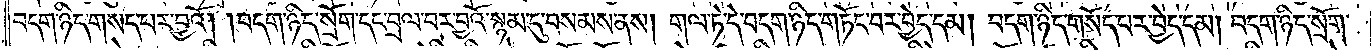བདག་ཉིད་གསད་པར་བྱའོ། །བདག་ཉིད་སྲོག་དང་བྲལ་བར་བྱའོ་སྙམ་དུ་བསམས་ནས། གལ་ཏེ་དེ་བདག་ཉིད་གཏོང་བར་བྱེད་དམ། བདག་ཉིད་གསོད་པར་བྱེད་དམ། བདག་ཉིད་སྲོག་
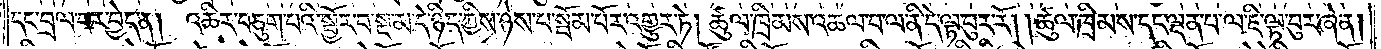དང་བྲལ་བར་བྱེད་ན། འཆིར་བཅུག་པའི་སྦྱོར་བ་སྔ་མ་དེ་ཉིད་ཀྱིས་ཉེས་པ་སྦོམ་པོར་འགྱུར་ཏེ། ཚུལ་ཁྲིམས་འཆལ་བ་ལ་ནི་དེ་ལྟ་བུར་རོ། །ཚུལ་ཁྲིམས་དང་ལྡན་པ་ལ་ཇི་ལྟ་བུར་ཞེ་ན།
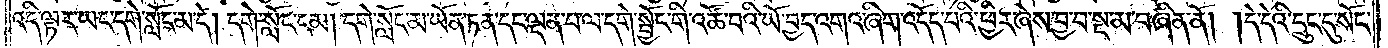འདི་ལྟར་ཡང་དགེ་སློང་མ་དེ། དགེ་སློང་ངམ། དགེ་སློང་མ་ཡོན་ཏན་དང་ལྡན་པ་ལ་དགེ་སྦྱོང་གི་འཚོ་བའི་ཡོ་བྱད་འགའ་ཞིག་འདོད་པའི་ཕྱིར་ཞེས་བྱ་བ་སྔ་མ་བཞིན་ནོ། །དེ་དེའི་དྲུང་དུ་སོང་
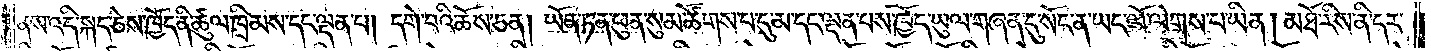ནས་འདི་སྐད་ཅེས་ཁྱོད་ནི་ཚུལ་ཁྲིམས་དང་ལྡན་པ། དགེ་བའི་ཆོས་ཅན། ཡོན་ཏན་ཕུན་སུམ་ཚོགས་པ་དུ་མ་དང་ལྡན་པས་ཁྱོད་ཡུལ་གཞན་དུ་སོང་ན་ཡང་ལོ་ལེགས་པ་ཡིན་།མཐོ་རིས་ནི་དར་
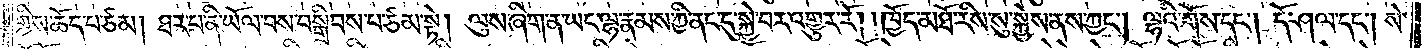གྱིས་ཆོད་པ་ཙམ། ཐར་པ་ནི་ཡོལ་བས་བསྒྲིབས་པ་ཙམ་སྟེ། ལུས་ཞིག་ན་ཡང་ལྷ་རྣམས་ཀྱི་ནང་དུ་སྐྱེ་བར་འགྱུར་རོ། །ཁྱོད་མཐོ་རིས་སུ་སྐྱེས་ནས་ཀྱང༌། ལྷའི་གོས་དང༌། དོ་ཤལ་དང༌། སེ་
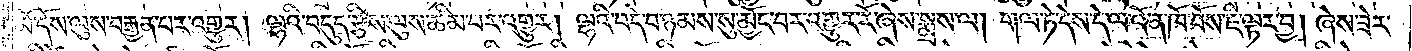མོ་དོས་ལུས་བརྒྱན་པར་འགྱུར། ལྷའི་བདུད་རྩིས་ལུས་ཚིམ་པར་འགྱུར། ལྷའི་བདེ་བ་ཉམས་སུ་མྱོང་བར་འགྱུར་རོ། ཞེས་སྨྲས་ལ། གལ་ཏེ་དེས་དེ་ལ་འོ་ན་ཁོ་བོས་ཇི་ལྟར་བྱ། ཞེས་ཟེར་
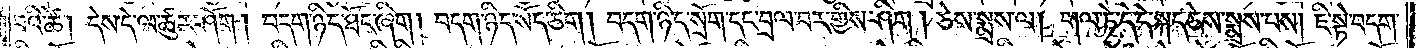བའི་ཚེ། དེས་དེ་ལ་ཚུར་ཤོག། བདག་ཉིད་ཐོང་ཞིག །བདག་ཉིད་སོད་ཅིག །བདག་ཉིད་སྲོག་དང་བྲལ་བར་གྱིས་ཤིག །ཅེས་སྨྲས་ལ། གལ་ཏེ་དེ་དེ་སྐད་ཅེས་སྨྲས་པས། ཇི་སྟེ་བདག་
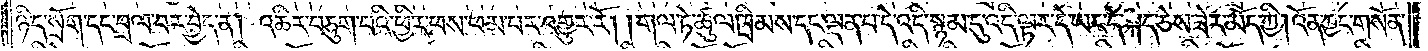ཉིད་སྲོག་དང་བྲལ་བར་བྱེད་ན། འཆིར་བཅུག་པའི་ཕྱིར་ཕས་ཕམ་པར་འགྱུར་རོ། །གལ་ཏེ་ཚུལ་ཁྲིམས་དང་ལྡན་པ་དེ་འདི་སྙམ་དུ་འདི་ལྟར་དེ་ཡང་དེ་སྐད་ཅེས་ཟེར་མོད་ཀྱི། འོན་ཀྱང་གསོན་
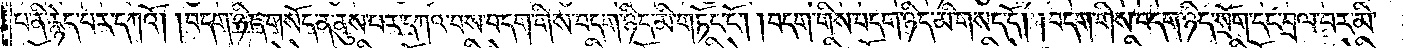པ་ནི་རྙེད་པར་དཀའོ། །བདག་ཉིད་གསོད་ན་ནུས་པར་དཀའ་བས་བདག་གིས་བདག་ཉིད་མི་གཏོང་ངོ༌། །བདག་གིས་བདག་ཉིད་མི་གསད་དོ། །བདག་གིས་བདག་ཉིད་སྲོག་དང་བྲལ་བར་མི་
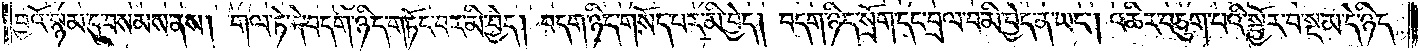བྱའོ་སྙམ་དུ་བསམས་ནས། གལ་ཏེ་དེ་བདག་ཉིད་གཏོང་བར་མི་བྱེད། བདག་ཉིད་གསོད་པར་མི་བྱེད། བདག་ཉིད་སྲོག་དང་བྲལ་བ་མི་བྱེད་ན་ཡང༌། འཆིར་བཅུག་པའི་སྦྱོར་བ་སྔ་མ་དེ་ཉིད་
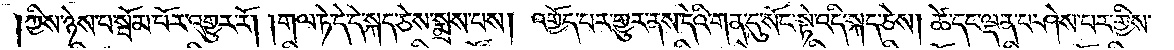ཀྱིས་ཉེས་པ་སྦོམ་པོར་འགྱུར་རོ། །གལ་ཏེ་དེ་དེ་སྐད་ཅེས་སྨྲས་པས། འགྱོད་པར་གྱུར་ནས་དེའི་གན་དུ་སོང་སྟེ་འདི་སྐད་ཅེས། ཚེ་དང་ལྡན་པ་ཤེས་པར་གྱིས་
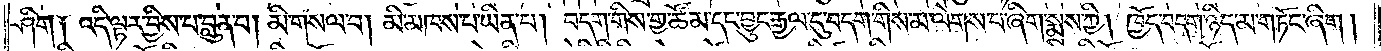ཤིག །འདི་ལྟར་བྱིས་པ་བླུན་པ། མི་གསལ་བ། མི་མཁས་པ་ཡིན་པ། བདག་གིས་གྱ་ཚོམ་དང་བྱུང་རྒྱལ་དུ་བདག་གིས་མ་ལེགས་པ་ཞིག་སྨྲས་ཀྱི། ཁྱོད་བདག་ཉིད་མ་གཏོང་ཞིག །
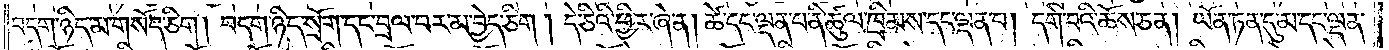བདག་ཉིད་མ་གསོད་ཅིག །བདག་ཉིད་སྲོག་དང་བྲལ་བར་མ་བྱེད་ཅིག །དེ་ཅིའི་ཕྱིར་ཞེ་ན། ཚེ་དང་ལྡན་པ་ནི་ཚུལ་ཁྲིམས་དང་ལྡན་པ། དགེ་བའི་ཆོས་ཅན། ཡོན་ཏན་དུ་མ་དང་ལྡན་
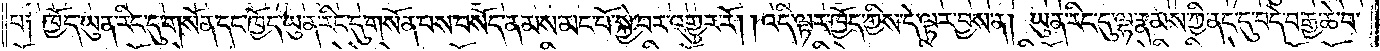པ༑ ཁྱོད་ཡུན་རིང་དུ་གསོན་དང་ཁྱོད་ཡུན་རིང་དུ་གསོན་པས་བསོད་ནམས་མང་པོ་སྐྱེ་བར་འགྱུར་རོ། ། འདི་ལྟར་ཁྱོད་ཀྱིས་དེ་ལྟར་བྱས་ན། ཡུན་རིང་དུ་ལྷ་རྣམས་ཀྱི་ནང་དུ་བདེ་བ་རྒྱ་ཆེ་བ་
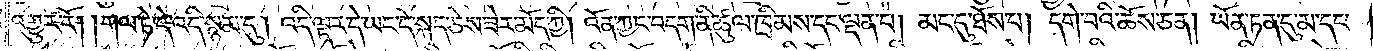འགྱུར་རོ། ། གལ་ཏེ་དེ་འདི་སྙམ་དུ། འདི་ལྟར་དེ་ཡང་དེ་སྐད་ཅེས་ཟེར་མོད་ཀྱི། འོན་ཀྱང་བདག་ནི་ཚུལ་ཁྲིམས་དང་ལྡན་པ། མང་དུ་ཐོས་པ། དགེ་བའི་ཆོས་ཅན། ཡོན་ཏན་དུ་མ་དང་
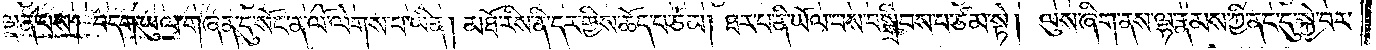ལྡན་པས། བདག་ཡུལ་གཞན་དུ་སོང་ན་ལོ་ལེགས་པ་ཡིན། མཐོ་རིས་ནི་དར་གྱིས་ཆོད་པ་ཙམ། ཐར་པ་ནི་ཡོལ་བས་བསྒྲིབས་པ་ཙམ་སྟེ། ལུས་ཞིག་ནས་ལྷ་རྣམས་ཀྱི་ནང་དུ་སྐྱེ་བར་
